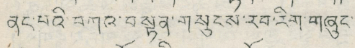ནང་པའི་བཀའ་བསྟན་གསུངས་རབ་རིག་གཞུང་
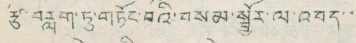རྩ་བརླག་ཏུ་གཏོང་བའི་བསམ་སྦྱོར་ལ་འབད་་
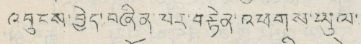འབུངས་བྱེད་བཞིན་པར་བརྟེན་འཕགས་ཡུལ་
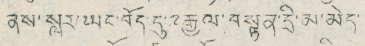ནས་སླར་ཡང་བོད་དུ་༸རྒྱལ་བསྙན་དྲི་མ་མེད་
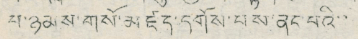པ་ཉམས་གསོ་མཛད་དགོས་པས་ནང་པའི་་
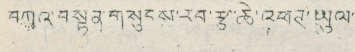བཀའ་བསྟན་གསུངས་རབ་རྩ་ཆེ་འཕཊ་ཡུལ།
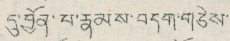དུ་བྱོན་པ་རྣམས་བདག་གཅེས་
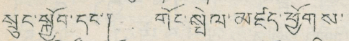སྲུང་སྐྱོབ་དང་། གོང་སྤེལ་མཛད་ཕྱོགས་
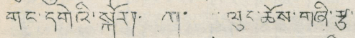གང་དགའི་སྐོར། ཀ་ ལུང་ཆོས་གཞི་རྩ་
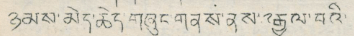ཉམས་མེད་ཆེད་གཞུང་གནས་ནས་༸རྒྱལ་བའི་
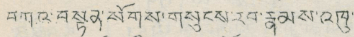བཀའ་བསྟན་སོགས་གསུངས་རབ་རྣམས་འཁུ་
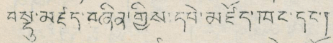བསྡུ་མཛད་བཞིན་གྱིས་དཔེ་མཛོད་ཁང་དང་།
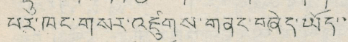པར་ཁང་གསར་འཛུགས་གནང་བཞེད་ཡོད་་
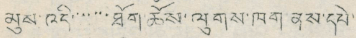མུས་འདི་་་་་་་ཐོག་ཆོས་ལུགས་ཁག ནས་དཔེ་
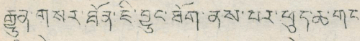རྒྱུན་གསར་ཐོན་ཇི་བྱུང་ཐོག་ནས་པར་ཕུད་ཆ་གང་
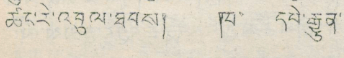ཚང་རེ་འབུལ་ཐབས། ཁ་ དཔེ་རྒྱུན་
